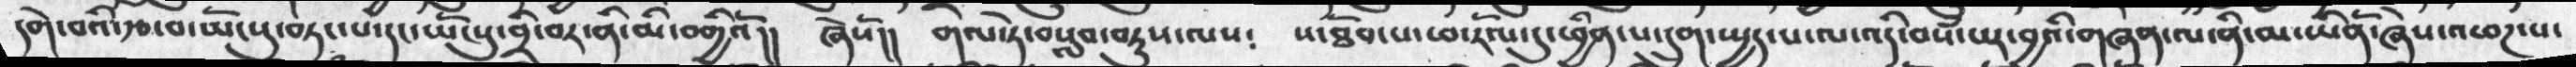དགེ་བའི་རྩ་བ་ཡོངསུ་བཏང་པ་དང་ཡོངསུ་བྲི་བར་ནི་མི་བགྱིའོ།།  ཞེསོ།།  གལ་ཏེ་བསླབ་བཏུས་ལས༴  ས་ཐོབ་པ་ཕ་རོལ་དུ་ཕྱིན་པ་དྲུག་སྤྱད་པ་ལ་འདི་བསཾ་པར་བྱའི་གཞན་ལ་ནི་མ་ཡིནོ་ཞེས་འཕཌ་པ་
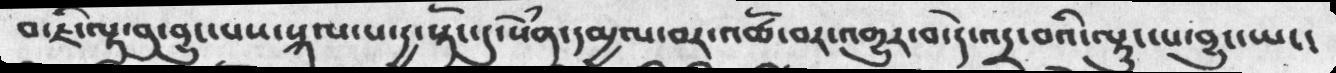བ་ཇི་ལྟ་བུ་བྱུང་པས་སྐལ་པ་དྱ་སྟོང་དུ་སེཾན་དམྱལ་བར་འཚོ་བར་འགྱུར་བ་དེ་འདྲ་བའི་ལྟུང་པ་བྱུང་ཡང་
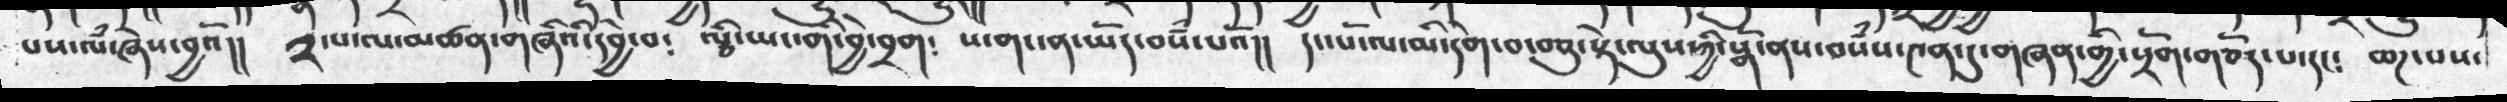པས་ལཾ་ཞེས་བྱའོ།། ༢་པ་ལ་མཚན་གཞིའི་དབྱེ་བ༴ ལྕི་ཡང་གི་བྱེ་བྲག༴  ས་གང་ན་ཡོད་བསཾ་པའོ།། དང་པོ་ལ་མི་དགེ་བ་བཅུ་སྟེ་ལུས་ཀྱི་སྒོ་ནས་བསཾས་༤ན་དུ་གཞན་གྱི་སྲོག་གཅོད་པ་དང༴  ཆཌ་པས་
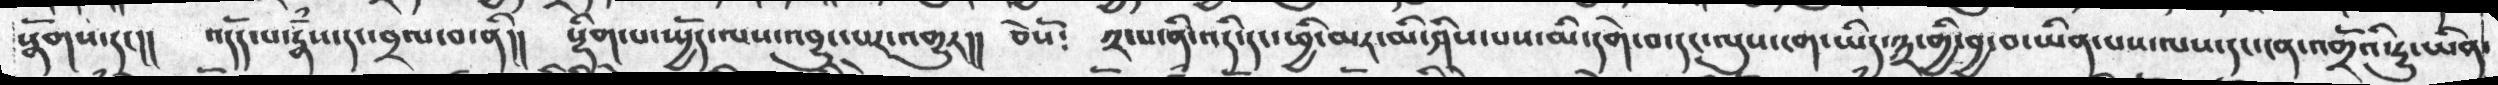སྣོགས་དང།། འདོད་པ་རྣཾས་དང་བྲལ་བ་ནི།། སྡིག་པ་སྤྱོད་ལས་འབྱུང་པར་འགྱུར།། ཅེསོ༴  ༢་པ་ནི་འདི་དང་ཕྱི་མར་མི་ཤེས་པས་མི་དགེ་བ་དང་ལུས་ངག་ཡིད་༣་གྱི་བྱ་བ་ཡིན་པས་ལས་དང་ངན་འགྲོའི་རྱུ་ཡིན་
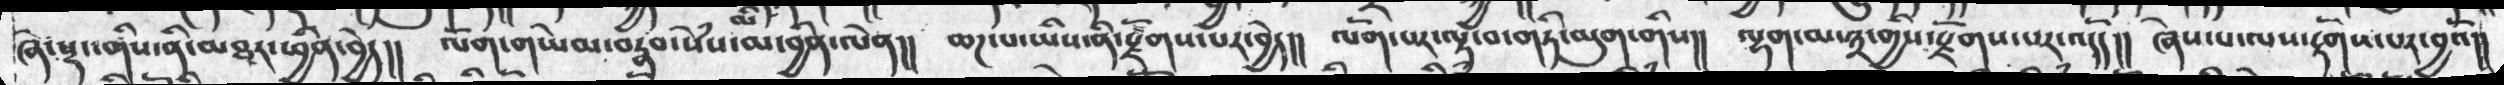ཞེ་སྡང་གིས་ནི་མཐར་ཕྱིན་བྱེད།།   ལོག་གཡེམ་བརྣབ་སེཾས་མ་བྱིན་ལེན།།   ཆཌ་པ་ཡིས་ནི་སྫོགས་པར་བྱེད།།  ལོག་པར་ལྟ་བ་གཏི་མུག་གིས།།    ལྷག་མ་༣་གྱིས་སྫོགས་པར་འདོད།།  ཞེས་པ་ལས་རྟོགས་པར་བྱའོ།།
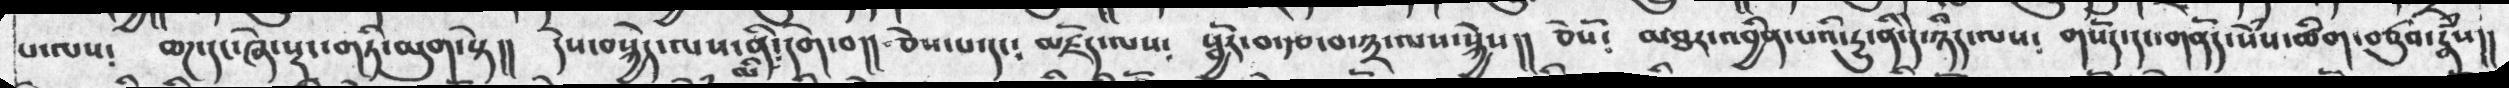པ་ལས༴   ཆཌ་དང་ཞེ་སྡང་གཏི་མུག་སྟེ།།  དེས་བསྐྱེད་ལས་ནི་མི་དགེ་བ།། ཅེས་པ་དང༴  མཛོད་ལས༴ སྦྱོར་བ་རྩ་བ་༣་ལས་སྐྱེས།།  ཅེསོ༴ མཐར་འབྱིན་པའི་དྱུ་ནི་དེ་ཉིད་ལད༴ གསོད་དང་གནོད་སེཾས་བཙུབ་རྣཾས།།
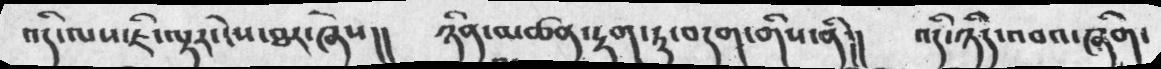འདི་ལས་ཇི་ལྟར་ངེས་ཐར་ཞེས།།  ཉིན་མཚན་རྟག་ཏུ་བདག་གིས་ནི།།  འདི་ཉིད་འབའ་ཞིག་
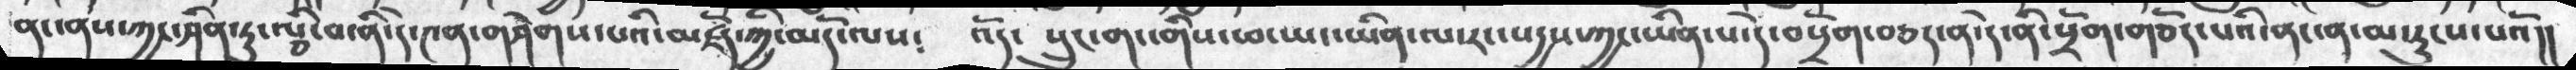ནང་ནས་ཀྱང་ཤིན་ཏུ་ལྕི་བ་ནི་དེ་༤ན་གཤེགས་པའི་མཛོད་ཀྱི་མདོ་ལས༴  འོད་ སྲུང་གང་གིས་ཕ་ཡང་ཡིན་ལ་རང་སདྱས་ཀྱང་ཡིན་པ་དེ་བསྲེག་བཅད་ན་དེ་ནི་སྲོག་གཅོད་པའི་ནང་ན་མ་རུངས་པའོ།།
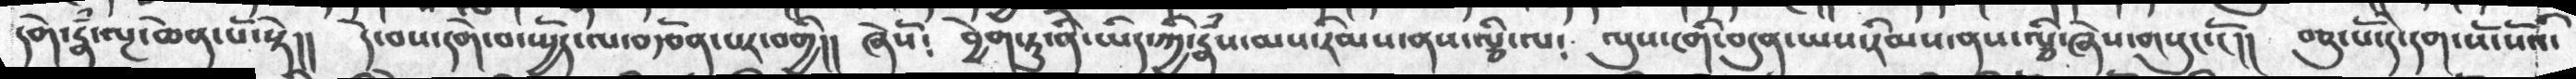དགེ་རྣཾ་ལྔ་ཆེན་པོ་སྟེ།། དེ་བས་དགེ་བ་སྤྱོད་ལ་བརྩོན་པར་བགྱི།། ཞེསོ༴ བྱེག་ཏུ་ནི་ཡིད་ཀྱི་རྣཾས་མས་རིམས་ནས་ལྕི་ལ༴ ལུས་ངགི་བདུན་ཡས་རིམས་ནས་ལྕི་ཞེས་གསུང་སོ།། བཅུ་པོ་དེ་དག་སོ་སོའི་
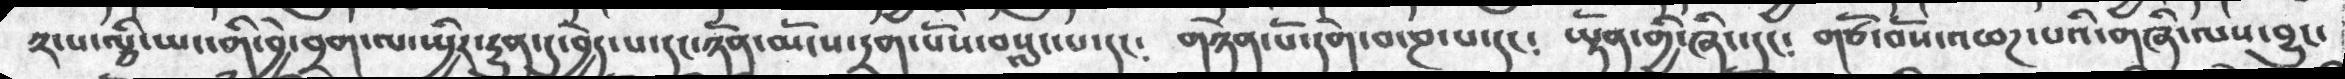༢་པ་ལྕི་ཡང་གི་བྱེ་བྲག་ལ་སྤྱིར་རྱུན་དུ་བྱེད་པ་དང་ཉོན་མོངས་དྲག་པོས་བསླང་པ་དང༴  གཉེན་པོ་དགེ་བ་ཎ་པ་དང༴  ཡྟོན་གྱི་ཞིང་དང༴  གཙོ་བོས་འཕཌ་པའི་གཞི་ལས་བྱུང་
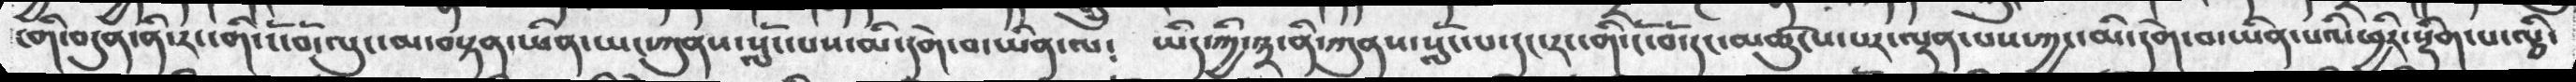ངགི་བདུན་རང་གི་ངོ་བོ་ལུང་མ་བསྟན་ཡིན་ཡང་ཀུནས་སློང་པས་མི་དགེ་བ་ཡིན་ལ༴  ཡིད་ཀྱི་༣་ནི་ཀུནས་སློང་པ་དང་རང་གི་ངོ་བོ་དང་མཚུངས་པར་ལྡན་པས་ཀྱང་མི་དགེ་བ་ཡིན་པའི་ཕྱིར་སྡིག་པ་ལྕི་
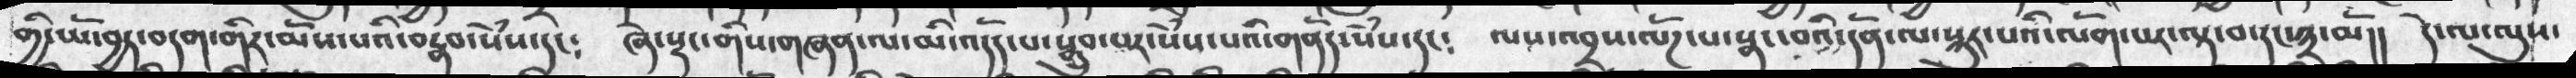གྱི་ཡོ་བྱད་བདག་གིར་མོས་པའི་བརྣབ་སེཾས་དང༴ ཞེ་སྡང་གིས་གཞན་ལ་མི་འདོད་པ་སྒྲུབ་པར་སེཾས་པའི་གནོད་སེཾས་དང༴ ལས་འབྲས་ལོཌ་པ་སྣང་བའི་དོན་ལ་སྐུར་པའི་ལོག་པར་ལྟ་བ་དང་༣་མོ།། དེ་ལ་ལུས་
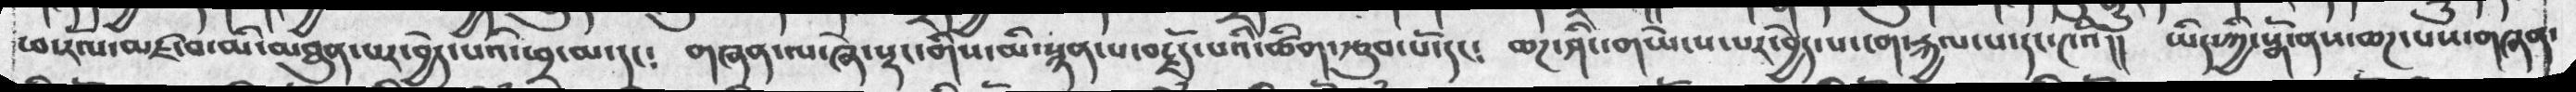ཕ་རོལ་མཛ་བ་མི་མཐུན་པར་བྱེད་པའི་ཕྲ་མ་དང༴ གཞན་ལ་ཞེ་སྡང་གིས་མི་སྙན་པ་བརྗོད་པའི་ཚིག་རྩུབ་པོ་དང༴  ཆཌ་ཤིང་གཡེངས་པར་བྱེད་པ་ངག་རྐྱལ་པ་དང་༤འོ།། ཡིད་ཀྱི་སྒོ་ནས་ཆཌ་པས་གཞན་
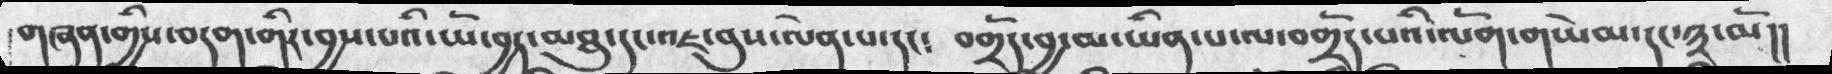གཞན་གྱིས་བདག་གིར་བྱས་པའི་ཡོ་བྱད་མཐུ་དང་འཇ་བུས་ལེན་པ་དང༴ བགྲོད་བྱ་མ་ཡིན་པ་ལ་བགྲོད་པའི་ལོག་གཡེམ་དང་༣་མོ།།
